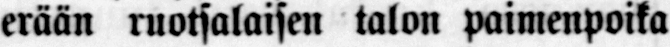erään ruotsalaisen talon paimenpoika
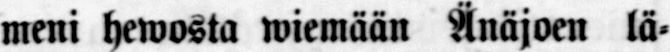meni Heinosta wiemään Änäjoen lä-
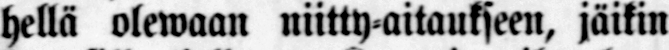hellä olewaan niitty-aitaukseen, jäikin
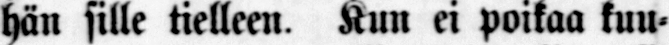hän sille tielleen. Kun ei poikaa kuu-
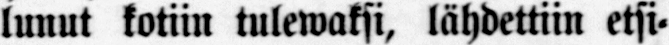lunut kotiin tulewaksi, lähdettiin etsi-
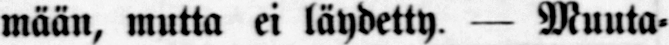mään, mutta ei löydetty. — Muuta-
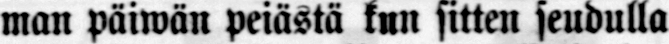man päiwän peiästä kun sitten seudulla
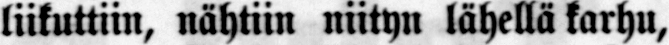liikuttiin, nähtiin niityn lähellä karhu,
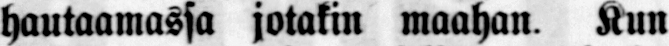hautaamassa jotakin maahan. Kun
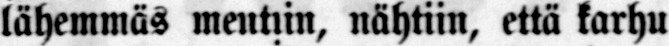lähemmäs mentiin, nähtiin, että karhu
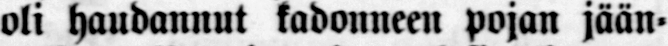oli haudannut kadonneen pojan jään-
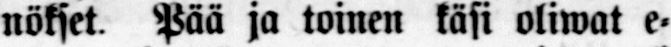nökset. Pää ja toinen käsi oliwat e-
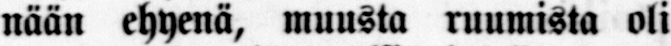nään ehyenä, muusta ruumista oli
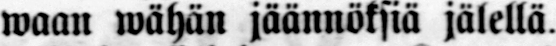waan wähän jäännöksiä jälellä.
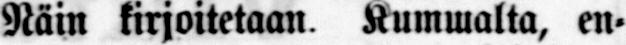Näin kirjoitetaan Kummalta, en-
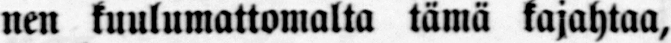nen kuulumattomalta tämä kajahtaa,
